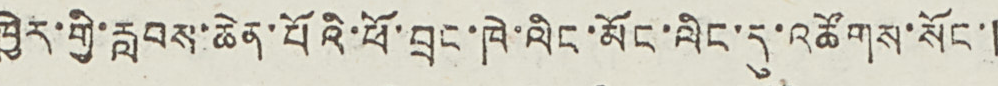ཁྱེར་གྱི་རླབས་ཆེན་པོའི་ཕོ་བྲང་ཁེ་ལིང་མོང་ལིང་དུ་འཚོགས་སོང་།
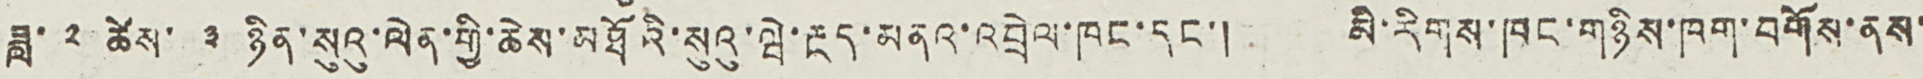ཟླ་ ༢ ཚེས་ ༣ ཉིན་སུའུ་ལེན་གྱི་ཆེས་མཐོའི་སུའུ་ཝེ་རྔད་མནའ་འབྲེལ་ཁང་དང་། མི་རིགས་ཁང་གཉིས་ཁག་བགོས་ནས་
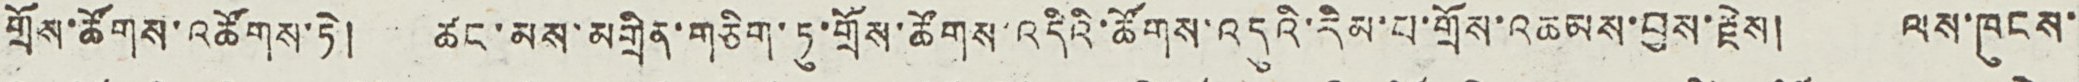གྲོས་ཚོགས་འཚོགས་ཏེ། ཚང་མས་མགྲིན་གཅིག་ཏུ་གྲོས་ཚོགས་འདིའི་ཚོགས་འདུའི་རིམ་པ་གྲོས་འཆམས་བྱས་རྗེས། ལས་ཁུངས་
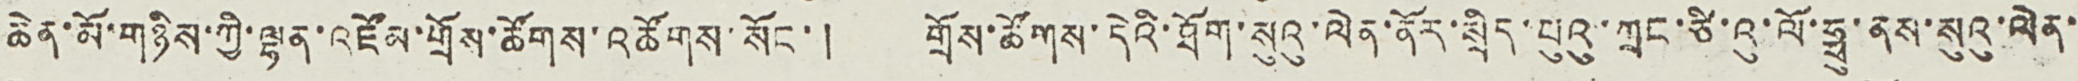ཆེན་མོ་གཉིས་ཀྱི་ལྷན་འཛོམ་གྲོས་ཚོགས་འཚོགས་སོང་། གྲོས་ཚོགས་དེའི་ཐོག་སུའུ་ལེན་ནོར་སྲིད་པུའུ་ཀྲང་ཙི་འུ་ལོ་ཧྥུ་ནས་སུའུ་ལེན་
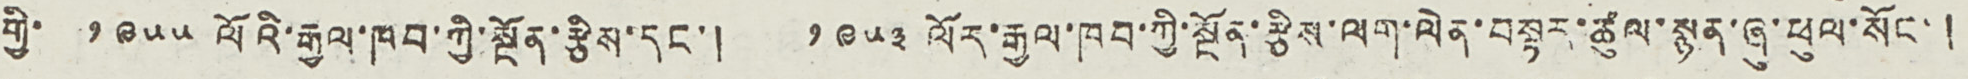གྱི་ ༡༩༥༥ ལོའི་རྒྱལ་ཁབ་ཀྱི་སྔོན་རྩིས་དང་། ༡༩༥༣ ལོར་རྒྱལ་ཁབ་ཀྱི་སྔོན་རྩིས་ལག་ལེན་བསྟར་ཚུལ་སྙན་ཞུ་ཕུལ་སོང་།
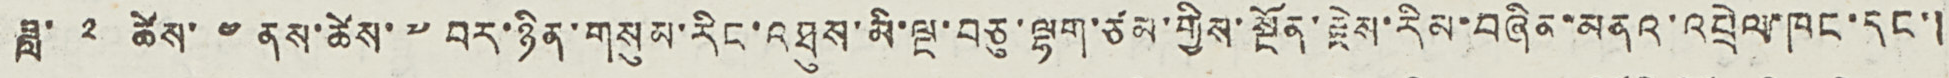ཟླ་ ༢ ཚེས་ ༤ ནས་ཚེས་ ༧ བར་ཉིན་གསུམ་རིང་འཐུས་མི་ལྔ་བཅུ་ལྷག་ཙམ་གྱིས་སྔོན་རྗེས་རིམ་བཞིན་མནའ་འབྲེལ་ཁང་དང་།
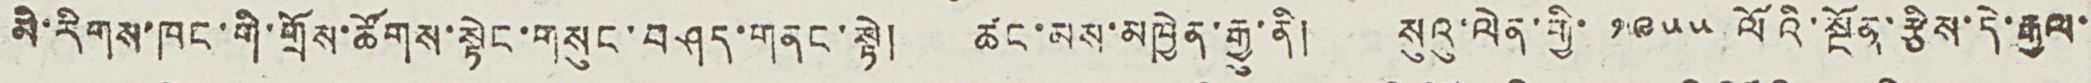མི་རིགས་ཁང་གི་གྲོས་ཚོགས་སྟེང་གསུང་བཤད་གནང་སྟེ། ཚང་མས་མཁྱེན་རྒྱུ་ནི། སུའུ་ལེན་གྱི་ ༡༩༥༥ ལོའི་སྔོན་རྩིས་དེ་རྒྱལ་
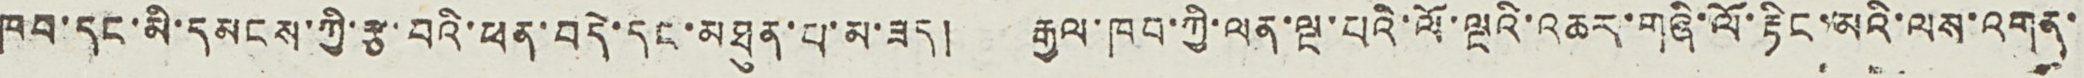ཁབ་དང་མི་དམངས་ཀྱི་རྩ་བའི་ཕན་བདེ་དང་མཐུན་པ་མ་ཟད། རྒྱལ་ཁབ་ཀྱི་ལན་ལྔ་པའི་ལོ་ལྔའི་འཆར་གཞི་ལོ་རྟིང་མའི་ལས་འགན་
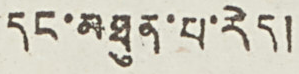དང་མཐུན་པ་རེད།
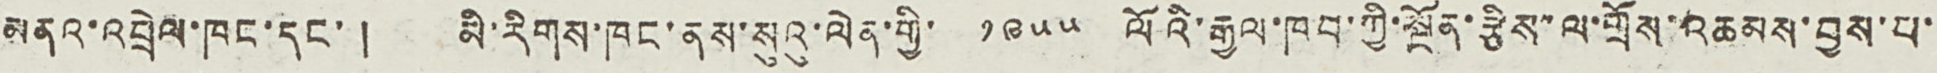མནའ་འབྲེལ་ཁང་དང་། མི་རིགས་ཁང་ནས་སུའུ་ལེན་གྱི་ ༡༩༥༥ ལོའི་རྒྱལ་ཁབ་ཀྱི་སྔོན་རྩིས་ལ་གྲོས་འཆམས་བྱས་པ་
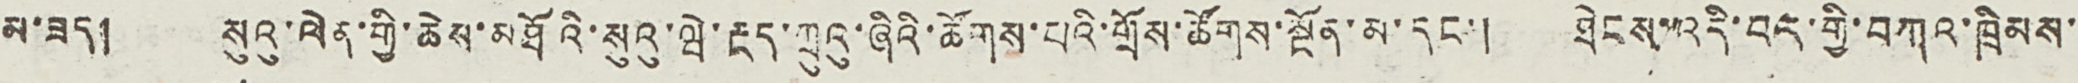མ་ཟད། སུའུ་ལེན་གྱི་ཆེས་མཐོའི་སུའུ་ཝེ་རྔད་ཀྲུའུ་ཞིའི་ཚོགས་པའི་གྲོས་ཚོགས་སྔོན་མ་དང་། ཐེངས་འདི་བར་གྱི་བཀའ་ཁྲིམས་
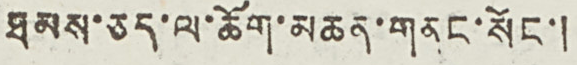ཐམས་ཅད་ལ་ཆོག་མཆན་གནང་སོང་།
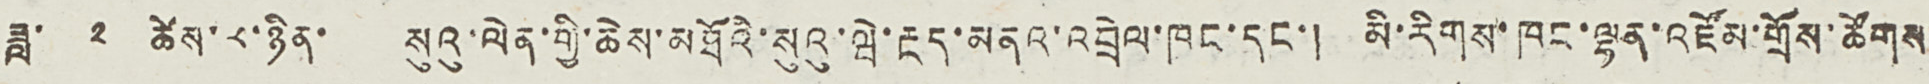ཟླ་ ༢ ཚེས་ ༨་ཉིན་ སུའུ་ལེན་གྱི་ཆེས་མཐོའི་སུའུ་ཝེ་རྔད་མནའ་འབྲེལ་ཁང་དང་། མི་རིགས་ཁང་ལྷན་འཛོམ་གྲོས་ཚོགས་
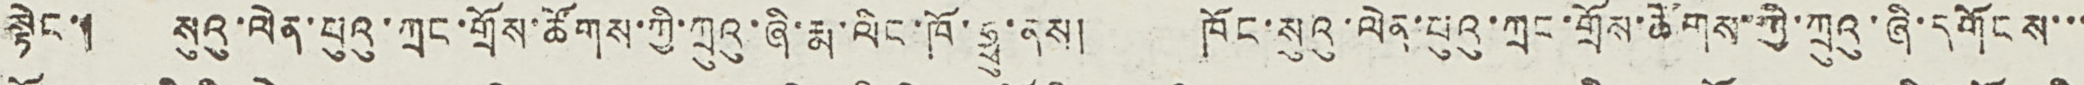སྟེང་། སུའུ་ལེན་པུའུ་ཀྲང་གྲོས་ཚོགས་ཀྱི་ཀྲུའུ་ཞི་རྨ་ལིང་ཁོ་ཧྥུ་ནས། ཁོང་སུའུ་ལེན་པུའུ་ཀྲང་གྲོས་ཚོགས་ཀྱི་ཀྲུའུ་ཞི་དགོངས་་་
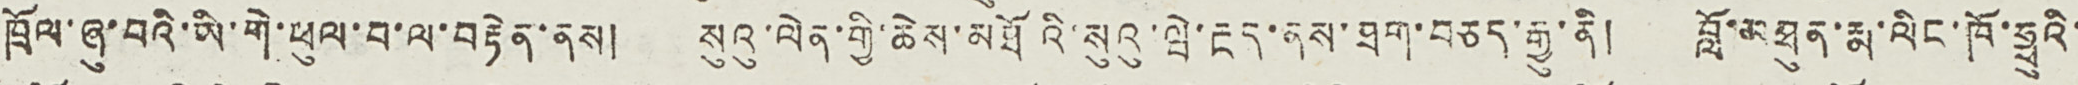ཁྲོལ་ཞུ་བའི་ཡི་གེ་ཕུལ་བ་ལ་བརྟེན་ནས། སུའུ་ལེན་གྱི་ཆེས་མཐོའི་སུའུ་ཝེ་རྔད་ནས་ཐག་བཅད་རྒྱུ་ནི། བློ་མཐུན་རྨ་ལིང་ཁོ་ཧྥུའི་
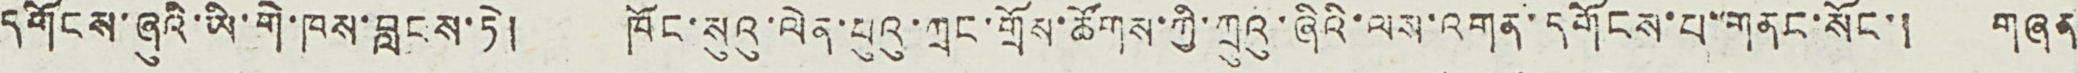དགོངས་ཞུའི་ཡི་གེ་ཁས་བླངས་ཏེ། ཁོང་སུའུ་ལེན་པུའུ་ཀྲང་གྲོས་ཚོགས་ཀྱི་ཀྲུའུ་ཞིའི་ལས་འགན་དགོངས་པ་གནང་སོང་། གཞན
